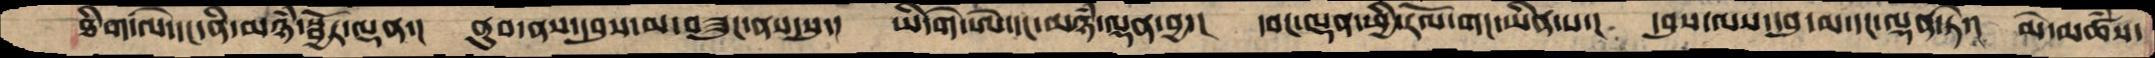ཐིག་ལེ་དང་ནི་མཉཾ་སྦྱོར་ལྡན་།  ནུབ་ནས་དབུས་མ་བཟུང་ནས་སུ་།  ཡི་གེ་ཨེ་དང་མཉཾ་ལྡན་བྱ་།  དབང་ལྡན་ཕྱི་རོལ་གང་ཡིན་པ་།  དབུས་ལས་དབུ་མ་དང་ལྡན་ཏེ་།  མེ་མཚཾས་
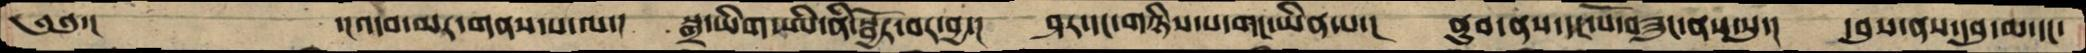༄༅་།         ་།འདབ་མར་གནས་པ་ལ་།  སྒྲ་ཡིག་ཨི་ནི་སྦྱོར་བར་བྱ་།  ཤར་དང་གཉིས་པ་གང་ཡིན་པ་།  ནུབ་ནས་དང་པོ་བཟུང་ནས་སུ་།  དབུས་ནས་དབུ་མ་དང་
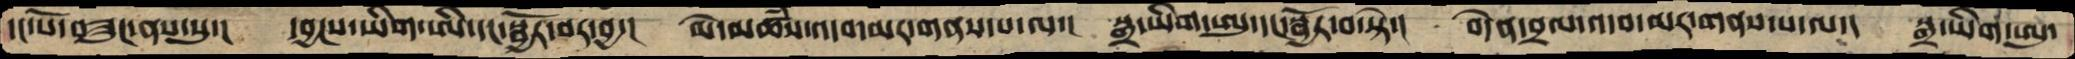དང་པོ་བཟུང་ནས་སུ་།  དབྱངས་ཡིག་ཨི་དང་སྦྱོར་བར་བྱ་།  མེ་མཚཾས་འདབ་མར་གནས་པ་ལ་།  སྒྲ་ཡིག་ཨུ་དང་སྦྱོར་བ་སྟེ་།  བདེན་བྲལ་འདབ་མར་གནས་པ་ལ་།  སྒྲ་ཡིག་ཨུ་
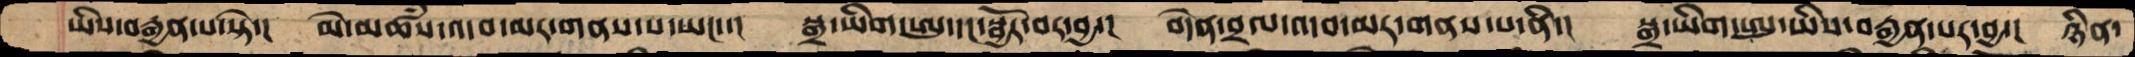ཡིས་བརྒྱན་པ་སྟེ་།  མེ་མཚཾས་འདབ་མར་གནས་པ་ཡང་་།  སྒྲ་ཡིག་ཨུ་དང་སྦྱོར་བར་བྱ་།  བདེན་བྲལ་འདབ་མར་གནས་པ་ནི་།  སྒྲ་ཡིག་ཨུ་ཡིས་བརྒྱན་པར་བྱ་།  ཉིན་
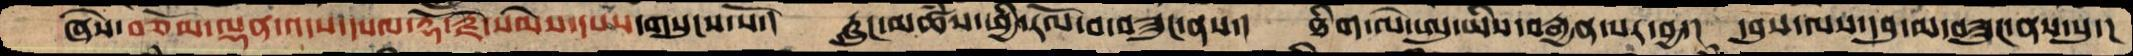ཞེས་བཅོམ་ལྡན་འདས་དཔལ་རྡོ་རྗེ་སེམས་དཔས་གསུངས་སོ་།   རླུང་མཚཾས་ཕྱི་རོལ་བ་བཟུང་ནས་།  ཐིག་ལེ་ཨུ་ཡིས་བརྒྱན་པར་བྱ་།  དབུས་ལས་དབུ་མ་བཟུང་ནས་སུ་།
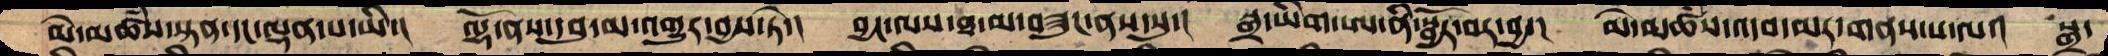མེ་མཚཾས་སྟན་དང་ལྡན་པ་ཡི་  ལྷོ་ནས་དབུ་མ་འགྱུར་བྱས་ཏེ་།  བྱང་ལས་ཐ་མ་བཟུང་ནས་སུ་།  སྒྲ་ཡིག་ཨ་ནི་སྦྱོར་བར་བྱ་།  མེ་མཚཾས་འདབ་མར་གནས་པ་ལ་།  སྒྲ་
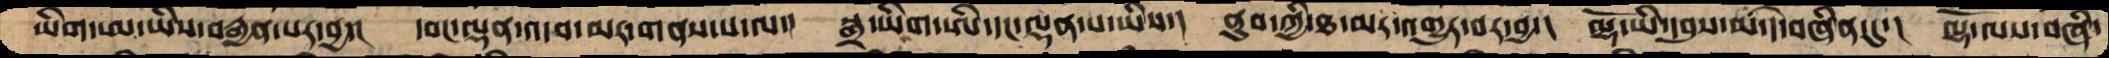ཡིག་ཨ་ཡིས་བརྒྱན་པར་བྱ་།  དབང་ལྡན་འདབ་མར་གནས་པ་ལ་།  སྒྲ་ཡིག་ཨི་དང་ལྡན་པ་ཡིས་།  ནུབ་ཀྱི་ཐ་མར་འགྱུར་བར་བྱ་།  ལྷོ་ཡི་དབུས་མ་དེ་བཞིན་དུ་།  ལྷོ་ལས་བཞི་
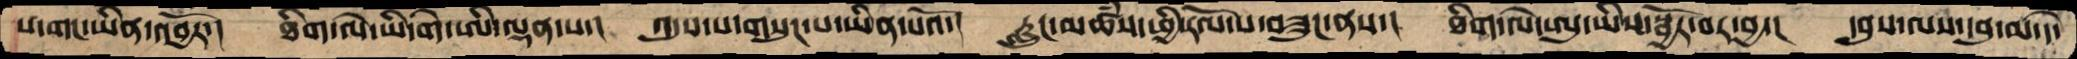པ་གང་ཡིན་འབྱོར་།  ཐིག་ལེ་ཡི་གེ་ཨི་ལྡན་པ་།  འདུས་པ་གསུང་པ་ཡིན་པའོ་།   རླུང་མཚཾས་ཕྱི་རོལ་པ་བཟུང་ནས་།  ཐིག་ལེ་ཨུ་ཡིས་སྦྱོར་བར་བྱ་།  དབུས་ལས་དབུ་མ་དེ་
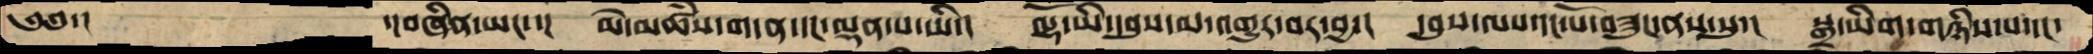༄༅་།          ་།བཞིན་ཡང་་།  མེ་མཚཾས་གདན་དང་ལྡན་པ་ཡི་།  ལྷོ་ཡི་དབུས་མ་འགྱུར་བར་བྱ་།  དབུས་ལས་དང་པོ་བཟུང་ནས་སུ་།  སྒྲ་ཡིག་གཉིས་པ་དང་
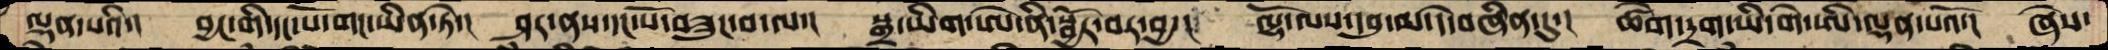ལྡན་པའི་།   བྱང་གི་དང་པོ་གང་ཡིན་ཏེ་།  ཤར་ནས་དང་པོ་བཟུང་བ་ལ་།  སྒྲ་ཡིག་ཨེ་ནི་སྦྱོར་བར་བྱ་།  ལྷོ་ལས་དབུ་མ་དེ་བཞིན་དུ་།  ཚེ་དྲག་ཡི་གེ་ཨི་ལྡན་པའོ་།  ཞེས་
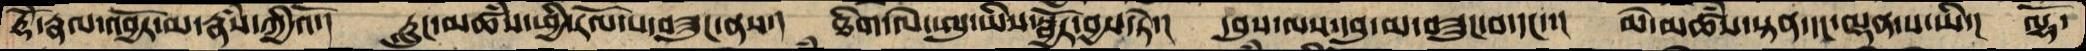རྡོེ་རྣལ་འབྱོར་མ་རྣཾས་ཀྱིའོ་།   རླུང་མཚཾས་ཕྱི་རོལ་པ་བཟུང་ནས་།  ཐིག་ལེ་ཨུ་ཡིས་སྦྱོར་བྱས་ཏེ་།  དབུས་ལས་དབུ་མ་བཟུང་བ་དང་་།།  མེ་མཚཾས་སྟན་དང་ལྡན་པ་ཡི་།  ལྷོ་
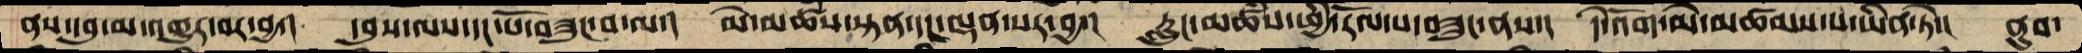ནས་དབུ་མ་འགྱུར་བར་བྱ་།  དབུས་ལས་དང་པོ་བཟུང་བ་ལ་།  མེ་མཚཾས་སྟན་དང་ལྡན་པར་བྱ་།  རླུང་མཚཾས་ཕྱི་རོལ་པ་བཟུང་ནས་།  དེ་འོག་མེ་མཚམས་པ་ཡིན་ཏེ་།  ནུབ་
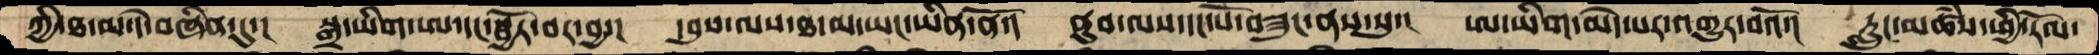ཀྱི་ཐ་མ་དེ་བཞིན་དུ་།  སྒྲ་ཡིག་ཨ་དང་སྦྱོར་བར་བྱ་།  དབུས་ལས་ཐ་མ་ཡང་ཡིན་ནོ་།  ནུབ་ལས་དང་པོ་བཟུང་ནས་སུ་།  ཨ་ཡིག་མེད་པར་འགྱུར་བའོ་།  རླུང་མཚཾས་ཕྱི་རོལ་
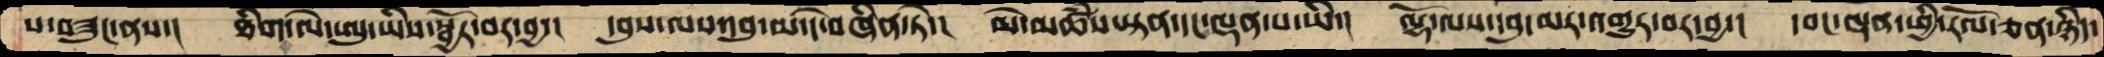པ་བཟུང་ནས་།  ཐིག་ལེ་ཨུ་ཡིས་སྦྱོར་བར་བྱ་།  དབུས་ལས་དབུ་མ་དེ་བཞིན་ཏེ་།  མེ་མཚཾས་སྟན་དང་ལྡན་པ་ཡི་།  ལྷོ་ལས་དབུ་མར་འགྱུར་བར་བྱ་།  དབང་ལྡན་ཕྱི་རོལ་ཅན་ཉིད་
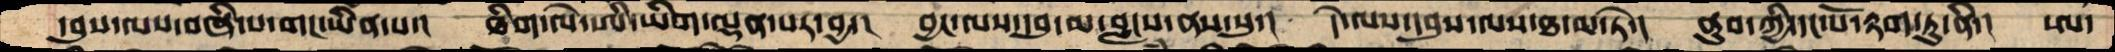དབུས་ལས་བཞི་པ་གང་ཡིན་པ་།  ཐིག་ལེ་ཨི་ཡིག་ལྡན་པར་བྱ་།  བྱང་ལས་དབུ་མ་བླངས་ནས་སུ་།  དེ་ལས་དབུས་ལས་ཐ་མ་ཏེ་།  ནུབ་ཀྱི་དང་པོ་རྟག་དཏུ་ནི་།  ཨ་
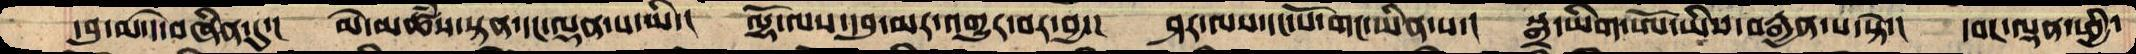དབུ་མ་དེ་བཞིན་དུ་།  མེ་མཚཾས་སྟན་དང་ལྡན་པ་ཡི་།  ལྷོ་ལས་དབུ་མར་འགྱུར་བར་བྱ་།  ཤར་ལས་དང་པོ་གང་ཡིན་པ་།  སྒྲ་ཡིག་ཨོ་ཡིས་བརྒྱན་པ་སྟེ་།  དབང་ལྡན་ཕྱི་
